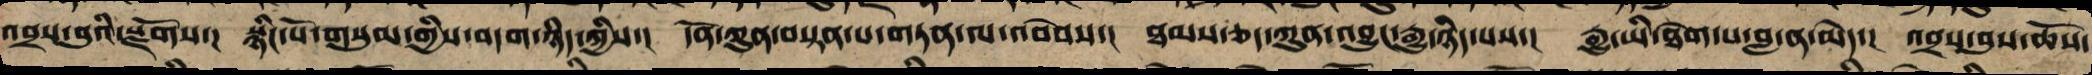འབྲས་བུ་སྫོགས་། སྙིང་པོ་གསུམ་གྱི་བདག་ཉིད་ཀྱིས་། དོན་ཀུན་བསྟན་པ་གཏན་ལ་འབེབས་། ཐམས་ཅད་ཀུན་འབྱུང་རྒྱུ་ཉིད་པས་། རྒྱུ་ཡི་ཐེག་པ་བླ་ན་མེད་། འབྲས་བུའི་ཆོས་
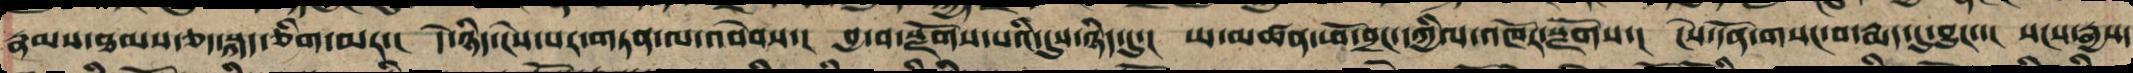རྣམས་ཐམས་ཅད་སྐད་ཅིག་མར་། དེ་ཉིད་ངེས་པར་གཏན་ལ་འབེབས་། བྱ་བ་སྫོགས་པའི་དུས་ཉིད་དུ་། ཡ་མཚན་ཕོ་བྲང་དཀྱིལ་འཁོར་སོགས་། ངེས་དོན་གསང་བ་རྨད་དུ་བྱུང་་། སངས་རྒྱས་
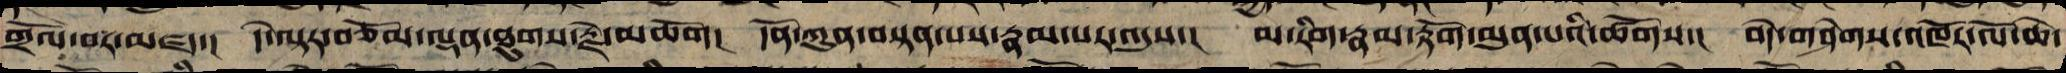གྲོལ་བར་མཛད་། དེ་ལྟར་བཅོམ་ལྡན་ཐུགས་རྗེ་མཆོག། དོན་ཀུན་བསྟན་པས་རྣམ་པར་འདུས་། མ་རིག་རྣམ་རྟོག་མུན་པའི་ཚོགས་། བདེ་གཤེགས་འཁོར་ལོ་ཆེ་
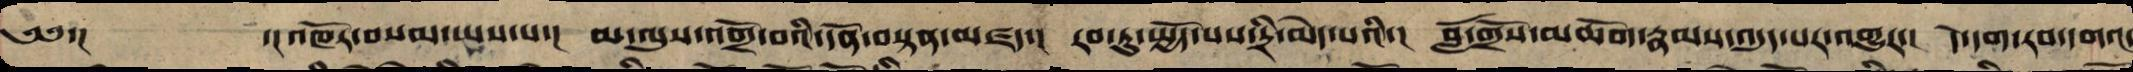༄༅་། ་།འཁོར་བསམ་ཡས་པ་། མ་ལུས་འགྲོ་བའི་དོན་བསྟན་མཛད་། རབ་ཏུ་སྤྱོད་པས་དྲི་མེད་པའི་། བློ་གྲོས་མཆོག་རྣམས་འདུད་པར་གྱུར་། དེ་དག་རབ་དགའ་
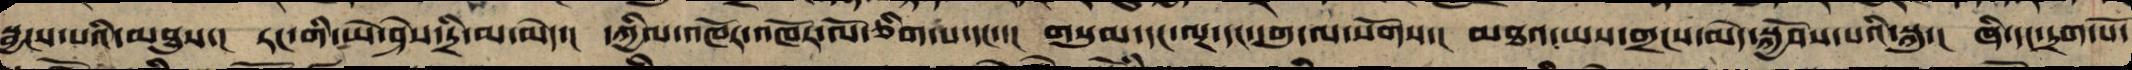སྦྱངས་པའི་མཐུས་། རང་གི་ཡེ་ཤེས་དྲི་མ་མེད་། དཀྱིལ་འཁོར་འཁོར་ལོ་གཅིག་པ་དང་་། གསུམ་དང་ལྔ་དང་དགུ་ལ་སོགས་། མཐའ་ཡས་གྲངས་མེད་སྐྱོབས་པའི་སྐུ་། ཞི་དང་དྲག་པོ་
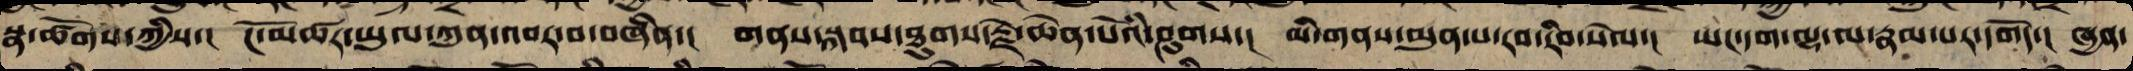སྣ་ཚོགས་ཀྱིས་། ངོ་མཚར་ཡུལ་ཀུན་འབར་བ་བཞིན་། གནས་སྐབས་ཐུགས་རྗེ་ཆེན་པོའི་ཤུགས་། མི་གནས་མུན་པ་རབ་རིབ་སེལ་། ཡང་དག་ལྟ་ལ་རྣམ་པར་དགོད་། ཞྱན་
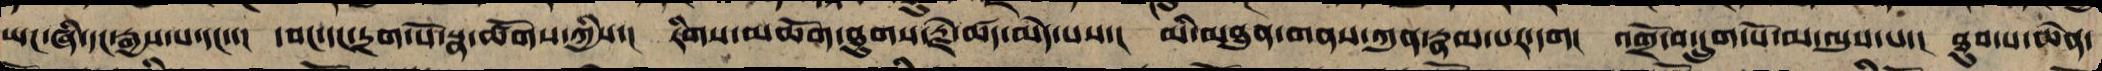ཡང་ཞི་དང་རྒྱས་པ་དང་་། དབང་དང་དྲག་པོ་སྣ་ཚོགས་ཀྱིས་། རིགས་མཆོག་ཐུགས་རྗེ་ཚད་མེད་པས་། མི་མཐུན་གནས་ཀུན་རྣམ་པར་དག། འགྲོ་བ་དྲུག་པོ་མ་ལུས་པ་། ཐུབ་པ་ཆེན་
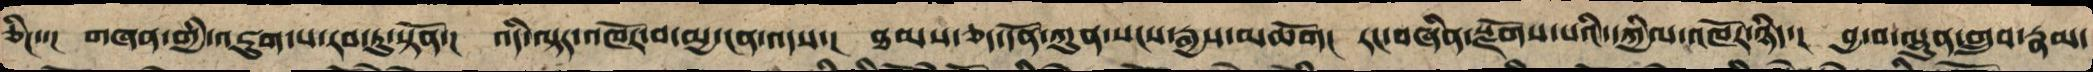ཅིང་་ གཞན་གྱི་འཇུག་པ་རབ་ཏུ་སྟོན་། འདི་ལྟར་འཁོར་བ་མྱ་ངན་འདས་། ཐམས་ཅད་དོན་ཀུན་སངས་རྒྱས་མཆོག། རང་བཞིན་སྫོགས་པའི་དཀྱིལ་འཁོར་ཉིད་། བྱ་བ་ལྷུན་གྲུབ་རྣམ་
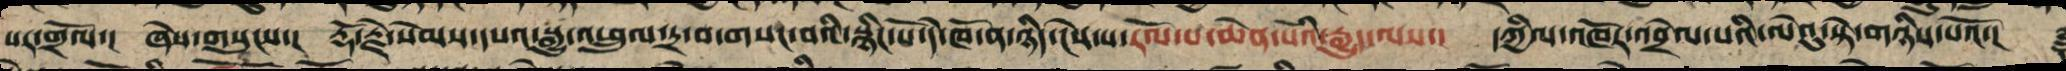པར་གྲོལ་། ཞེས་གསུངས་། རྡོ་རྗེ་སེམས་དཔའ་སྒྱུ་འཕྲུལ་དྲ་བ་གསང་བའི་སྙིང་པོ་དེ་ཁོ་ན་ཉིད་ངེས་པ་རོལ་པ་ཆེན་པོའི་རྒྱུད་ལས་། དཀྱིལ་འཁོར་འབྲེལ་པའི་ལེའུ་སྟེ་གཉིས་པའོ་།། ༈
